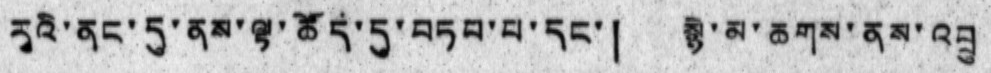རྭའི་ནང་དུ་ནས་ལྟ་ཚོད་དུ་བཏབ་བ་དང་། སྙེ་མ་ཆགས་ནས་འབྲུ
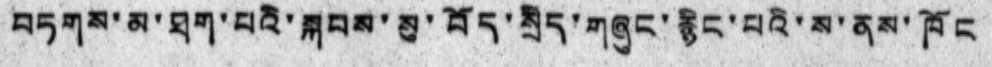བཏགས་མ་ཐག་པའི་སྐབས་སུ་བོད་སྲིད་གཞུང་རྙིང་པའི་ས་ནས་ཁོང
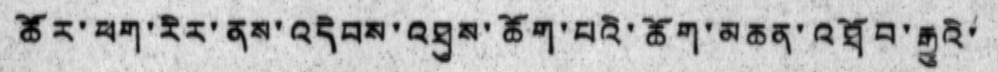ཚོར་ཕག་རིར་ནས་འདེབས་འཐུས་ཆོག་པའི་ཆོག་མཆན་འཐོབ་རྒྱུའི་
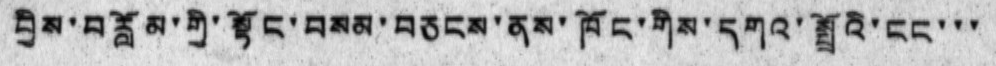བྱིས་བརློམ་གྱི་སྟོང་བསམ་བཅངས་ནས་ཁོང་གིས་དགའ་སྤྲོའི་ངང་་་
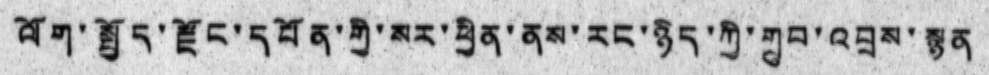ལོག་སྤྱོད་རྫོང་དཔོན་གྱི་སར་ཕྱིན་ནས་རང་ཉིད་ཀྱི་གྲུབ་འབྲས་སྙན
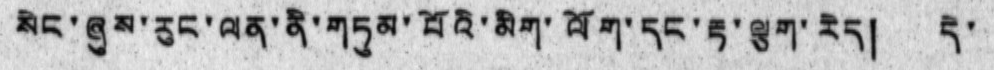སེང་ཞུས་རུང་ལན་ནི་གཏུམ་པོའི་མིག་ལོག་དང་རྟ་ལྕག་རེད། དེ་
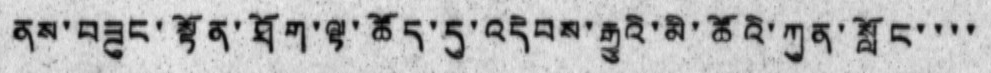ནས་བཟུང་སྟོན་ཐོག་ལྟ་ཚོད་དུ་འདེབས་རྒྱུའི་མི་ཚོའི་ཀུན་སློང་་་་
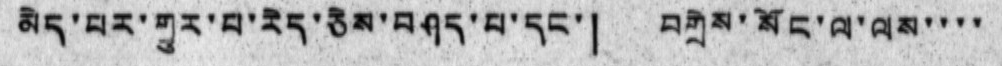མེད་བར་གྱུར་པ་རེད་ཅེས་བཤད་པ་དང་། བགྲེས་སོང་ལ་ལས་་་་
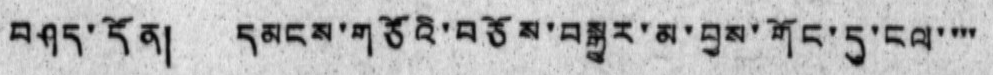བཤད་དོན། དམངས་གཙོའི་བཅོས་བསྒྱུར་མ་བྱས་གོང་དུ་ངལ་་་་
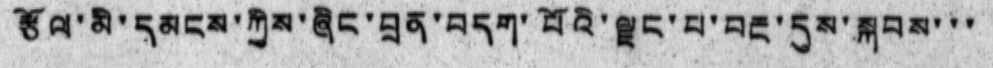རྩོལ་མི་དམངས་ཀྱིས་ཞིང་བྲན་བདག་པོའི་ལྗང་པ་བརྔ་དུས་སྐབས་་་
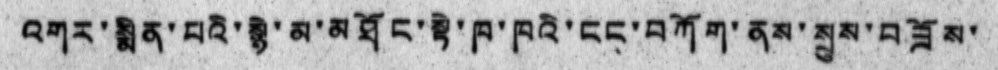འགར་སྨིན་པའི་སྙེ་མ་མཐོང་སྟེ་ཁ་ཁའི་ངང་བཀོག་ནས་སྲུས་བཟོས་
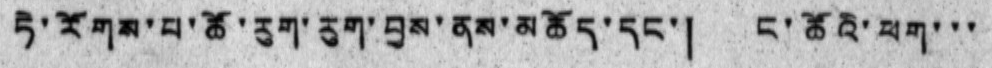ཏེ་རོགས་པ་ཚོ་རུག་རུག་བྱས་ནས་མཆོད་དང་། ང་ཚོའི་ཕག་་་
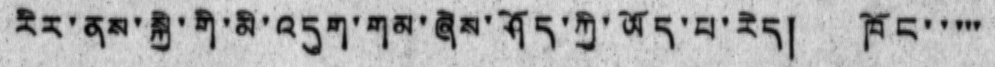རིར་ནས་སྐྱེ་གི་མི་འདུག་གམ་ཞེས་ཤོད་ཀྱི་ཡོད་པ་རེད། ཁོང་་་་་
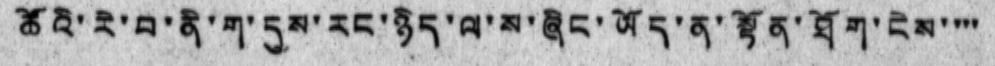ཚོའི་རེ་བ་ནི་ག་དུས་རང་ཉིད་ལ་ས་ཞིང་ཡོད་ན་སྟོན་ཐོག་ངེས་་་་
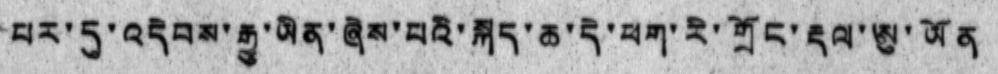པར་དུ་འདེབས་རྒྱུ་ཡིན་ཞེས་པའི་སྐད་ཆ་དེ་ཕག་རི་གྲོང་རྡལ་ཨུ་ཡོན
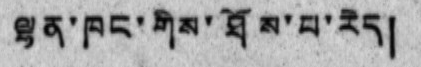ལྷན་ཁང་གིས་ཐོས་པ་རེད།
